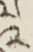༢
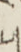༥
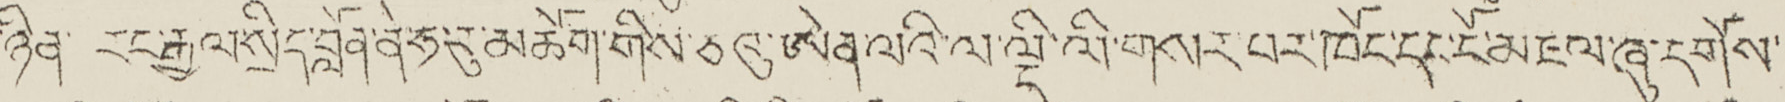ཉིན་ རང་རྒྱལ་སྲིད་བློན་ནེ་ཧ་རུ་མཆོག་གིས་ཅའུ་ཨེན་ལའི་ལ་ལྡི་ལི་གསར་པར་ཁོང་དང་ངོ་མཇལ་ཞུ་དགོས་
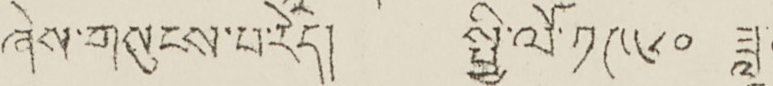ཞེས་གསུངས་པ་རེད། སྤྱི་ལོ་ ༡༩༦༠ ཟླ་
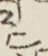༤
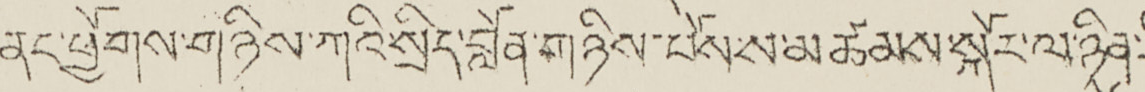ནང་ཕྱོགས་གཉིས་ཀའི་སྲིད་བློན་གཉིས་པོས་ས་མཚམས་སྐོར་ལ་ཉིན་
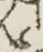༦
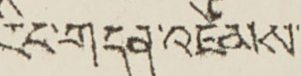རིང་གདན་འཛོམས་
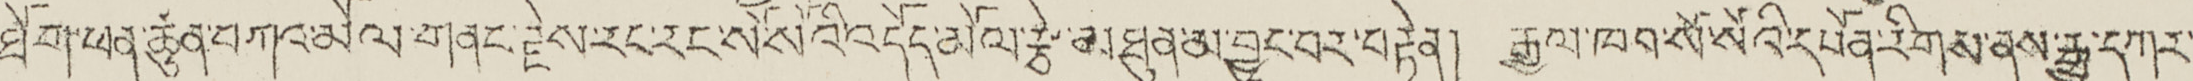ཐོག་ཕན་ཚུན་བཀའ་མོལ་གནང་རྗེས་རང་རང་སོ་སོའི་འདོན་མོལ་རྩེ་མཐུན་མ་བྱུང་བར་བརྟེན། རྒྱལ་ཁབ་སོ་སོའི་དཔོན་རིགས་ནས་རྒྱ་དཀར་
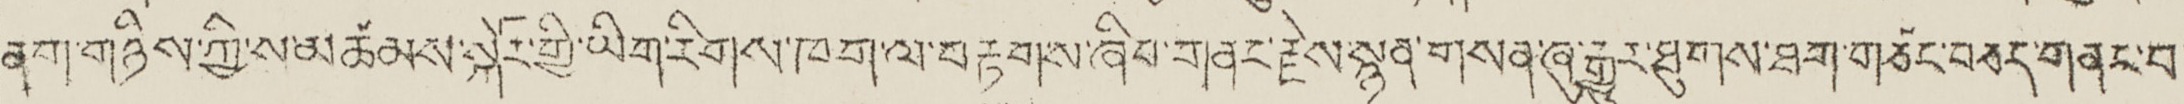ནག་གཉིས་ཀྱི་ས་མཚམས་སྐོར་གྱི་ཡིག་རིགས་ཁག་ལ་བརྟགས་ཞིབ་གནང་རྗེས་སྙན་གསན་ཞུ་རྒྱུར་ཐུགས་ཐག་གཅོང་བཅད་གནང་བ་
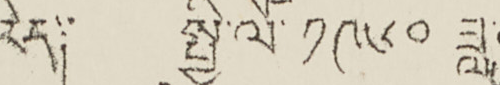རེད༑ སྤྱི་ལོ་ ༡༩༦༠ ཟླ་
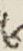༦
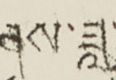ནས་ཟླ་
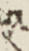༩
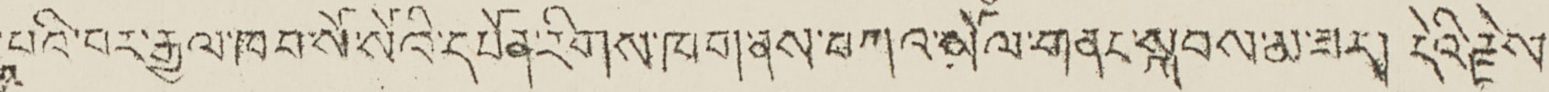པའི་བར་རྒྱལ་ཁབ་སོ་སོའི་དཔོན་རིགས་ཁག་ནས་བཀའ་མོལ་གནང་སྐབས་མ་ཟད། དེའི་རྗེས་
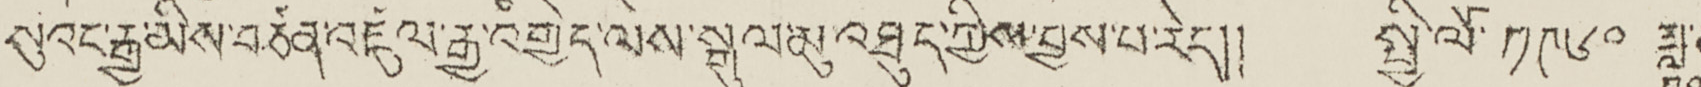སུའང་རྒྱ་མིས་བཙན་འཛུལ་རྒྱ་འགྱེད་ལས་སྒུལ་མུ་འཐུད་ཀྱིས་བྱས་པ་རེད།། སྤྱི་ལོ་ ༡༩༦༠ ཟླ་
